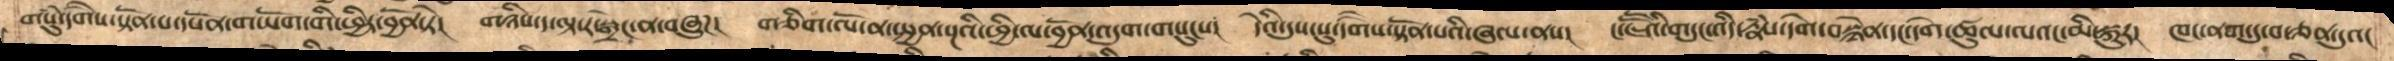གསུཾ་དགཻས་སྟོན་པ་དཔོན་གཡོག་གི་ཕྱིར་བྱོན་ཏེ།  གཉིས་ད་ལྟ་ར་སྒྲེང་ན་བཞུཌ།  གཅིག་ལོ་ན་སྤྱན་སྔའི་ཕྱི་ལ་བྱོན་འདུག་གསུངས།  དེའི་དུས་སུ་དགཻས་སྟོན་པའི་ཞལ་ནས།  ང་ཇཽའི་གདུང་འདི་རྣཾས་དགེ་བསྙེན་དང་དགེ་ཚུལ་ལའང་མི་སྐུར།   ཁང་ནག་དུ་བ་ཅན་དུའང
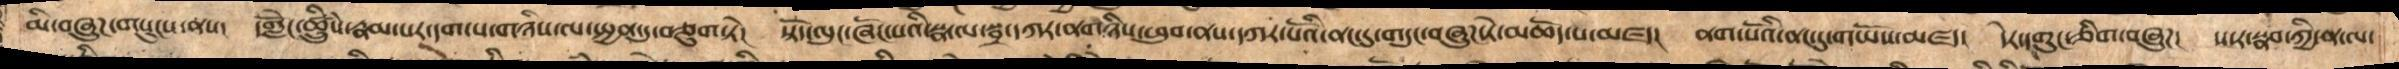མི་བཞུཌ་གསུངས་ནས།   དགླེོང་ཚྲིུཾས་རྣམ་པར་དག་པ་གཉིས་སྤྱན་དུ་བཅུག་སྟེ།  སྟོད་ལུང་ཞོང་པའི་སྣ་ལ་སྦྲ་དཀར་ནག་གཉིས་ཕུབ་ནས་དཀར་པོའི་ནང་དུ་གདུང་བཞུཌ་ཏེ་མཆོད་པ་མཛད།   ནག་པོའི་ནང་དུ་གཡོས་མཛད།   དེར་དགུང་ཅིག་བཞུཌ།  ས་ར་སྣབ་ཀྱི་ན་ལ་
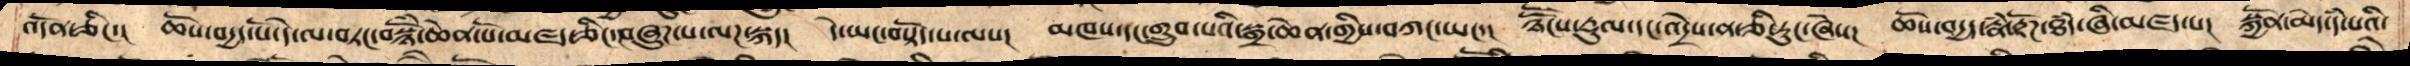འདོན་ཅིང་།   ཆོས་བདྱད་པོ་དེ་ལ་བཏང་བསྙོཾ་ཆེན་པོ་མཛད་ཅིང་བཞུཌ་པ་ལཌ་སྐད།   དེ་ཡང་བསྟོད་པ་ལས།   མཁས་དང་གྲུབ་པའི་སྒྲ་ཆེན་གྱིས་བཀང་ཡང་།     ཉཽངས་རྡུལ་དང་འདྲེས་ན་ཅི་རུང་ཞེས།   ཆོས་བདྱད་རྣཾ་རྟོཌ་ཐཾད་ཞི་མཛད་པ།  སྐྱོན་མེད་དཾ་པའི་
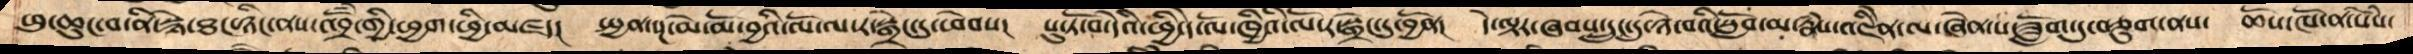ཕུ་ཆུང་བ་ནི་སྙེ་ཐང་ཉིང་ནས་འབྲོཾ་གྱི་ཕྱག་ཕྱི་མཛད།   སྤྱན་སྔ་མེ་མོ་བྱའི་ལོ་ལ་ར་སྒྲེང་དུ་ཕེབས།   པུ་ཏོ་བ་དེའི་ཕྱི་དེ་ལོ་ཁྱིའི་ལོ་ར་སྒྲེང་དུ་བྱོན།  དེ་ལྟར་ཞབས་དྲུང་དུ་ཉེ་བའི་སློབ་མ་རྣཾས་འཇིནེ་ལ་ཞེན་པ་ཟློག་དུ་བཅུག་ནས་  ཆོས་ཁོ་ན་སེཾས་
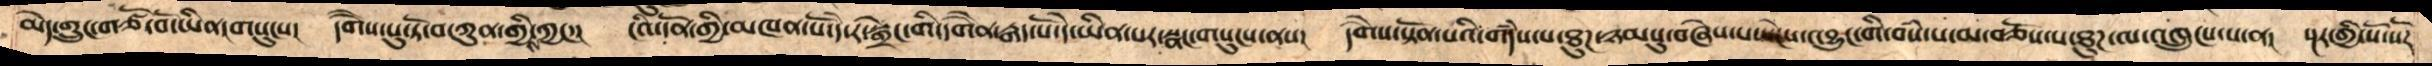མེད་གྲུང་གཙོ་བ་ཡིན་གསུངས།  དགཻས་པུ་ཏོ་བ་ཀུན་གྱིས་ཀྱང་།  ངའི་དོན་གྱི་མཁན་པོ་དེ་ར་སྒྲེང་གི་དགཻན་རྒན་པོ་དེ་ཡིན་པར་སྣང་གསུངས་ནས།  དགཻས་སྟོན་པའི་གདཾས་པ་ཐུཌ་ཉམསུ་བཞེས་པས་ངེས་འབྱུང་གི་བསཾ་པ་མ་བཅོས་པ་ཐུཌ་ལ་འཁྲུངས་པ་ན།   སྔར་གྱིས་སོ་སོར་
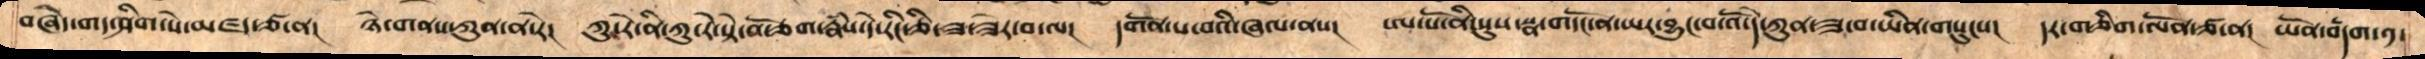བཞེད་གད་ཤིག་སེ་མཛད་ཙ་ན།   ཉེ་གནས་ཀུན་ན་རེ།   ཀུ་རེ་ནི་ཀུ་རེ་སྟེ་བོ་ཅག་རྣཾས་དེ་རིང་ཅི་ཟ་ཟེར་བ་ལ།   དགོན་པ་བའི་ཞལ་ནས།  ཨ་པོ་ནི་པུས་སྣ་གདོང་ན་ཡར་བྱུང་བ་འོ་དེ་ཀུན་ཟ་བ་ཡིན་གསུངས།   དར་ཅིག་ལོན་ཙ་ན  ཡོན་བདག་༡་
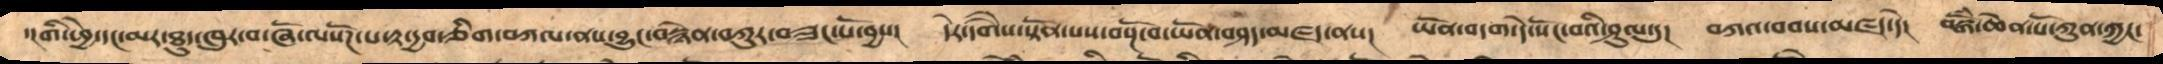་།གི་ཕྱེ་དང་མར་ཐུད་ཁུར་བ་ཞོ་ལསོཌ་པ་རྟ་དྱབ་གཅིག་བཀལ་ནས་བྱུང་བསྙེན་བཀུར་བཟང་པོ་བྱས།  དེར་དགཻས་སྟོན་པས་བསྔོ་བ་ཡོན་བཤད་མཛད་ནས།   ཡོན་བདག་དེ་སོང་བའི་ཤུལ་དུ།   བཀའ་བབས་མཛད་དེ།   བསྒོཾ་ཆེན་པོ་ཀུན་ཀྱང་
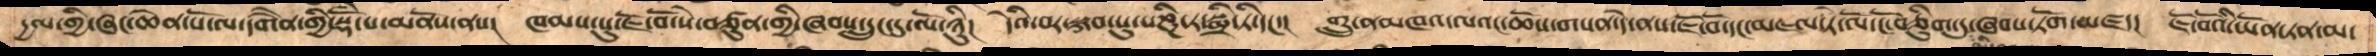དྱལ་གྱི་ཞང་ཆེན་པོ་ལ་དགཻན་གྱི་སྡོཾ་པ་མནོས་ནས།   ཁམས་སུ་ཇོ་བོ་སེ་བཙུན་གྱི་ཞབས་དྲུང་དུ་ལོ་ཉིུ།  དེའི་བར་སྐབསུ་པཎྜི་ཏ་སྨྲི་ཏི་དང་།   གྲུ་ནམཁའ་ལའང་ཆོས་གསན་དེ་ནས་ཇོ་བོ་དང་མཇལ་ཏེ་ལོ་ངོ་བཅིུག་དུ་ཞབས་ཏོག་མཛད།   ཇོ་བོའི་ཡོན་ཏན་མ་
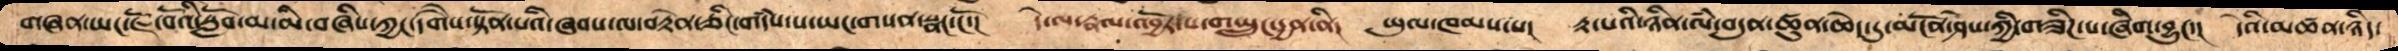གཞན་ཡང་ཇོ་བོའི་སློབ་མ་མི་བཞིས་ཀྱང་དགཻས་སྟོན་པའི་ཞབས་ལ་བརྟེན་ཅིང་གདཾས་པ་ཡང་གསན་སྣང་ངོ་།   དེ་ལ་རྣལ་འབྱོར་པ་གཡྲུང་དྱན་ནི།   ཡུལ་ཁམས་པ།   རྟ་པའི་ཉིན་ལཾ་བདུན་ཚུན་ཆེད་དུ་མངོན་ཤེས་ཀྱི་གཟིཌ་པ་ཞིག་བྱུང་།   དེའི་མཚན་ཉིད་
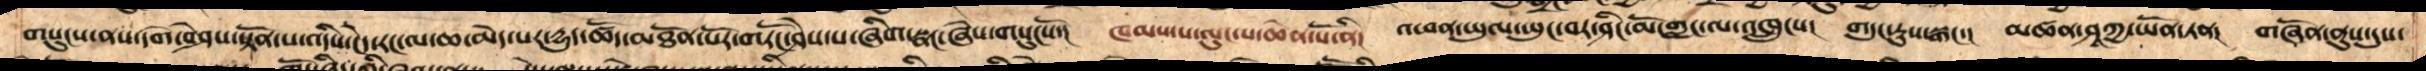གསུངས་ནས་དགེ་བཤེས་སྟོན་པ་འདིས་ངེད་རང་ལ་ཆ་མེད་པར་དྱུད་ཚོད་མཐོན་པོར་གཏོང་ཤེས་པ་ཞིག་སྣང་ཞེས་གསུངསོ།   ཁམས་པ་ལུང་པ་ཆེན་པོ་ནི།  འཕན་ཡུལ་ཡུང་བར་ཤིང་མོ་གླང་ལ་འཁྲུངས།   གདུང་རུས་སྒང་།   མཚན་ཤཱཀྱ་ཡོན་ཏན།  གཞོན་ནུས་དུས་
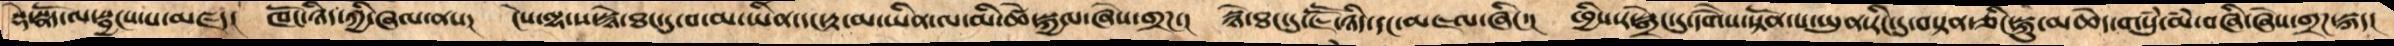སྡེ་སྣོད་ལ་སྦྱངས་པ་མཛད།   ཁོང་ཉིད་ཀྱི་ཞལ་ནས།   ངེས་ལྷ་ས་སྙེ་ཐང་དུ་བ་མ་ཡིན་དང་རྟ་མ་ཡིན་ལ་མི་ཚེ་སྐྱལ་ཞེས་གྲཌ་།   སྙེ་ཐང་དུ་ཇཽ་ཉིད་དང་མཇལ་ཞིང་ང  ཕྱིས་ར་སྒྲེང་དུ་དགཻས་སྟོན་པ་ཡུན་རིང་དུ་བསྟན་ཅིང་སྐུ་མཆེད་གསུཾ་མཾ་བཞི་ཞེས་གྲཌ་སྐད།
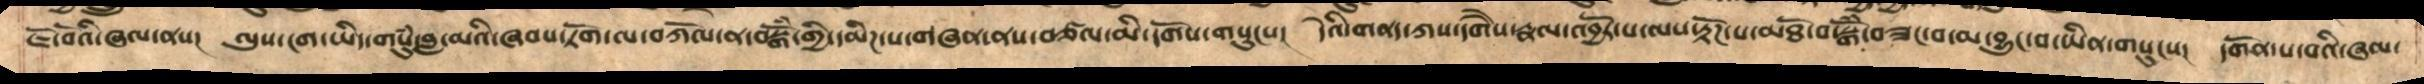ཇོ་བོའི་ཞལ་ནས།   ལུས་ངག་ཡིད་གསུཾ་བླ་མའི་ཞབས་ཏོག་ལ་བཀོལ་ན་བསྒོཾ་གྱི་དམིཌ་པ་གཞན་ནས་བཙལ་མི་དགོས་གསུངས།   དེའི་གནད་ཀས་དགཻས་རྣལ་འབྱོར་པ་ལས་རྟོཌ་པ་མཐོ་བ་སྒོཾ་བཟང་བ་མ་བྱུང་བ་ཡིན་གསུངས།  དགོན་པ་བའི་ཞལ་
